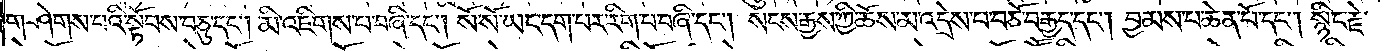གཤེགས་པའི་སྟོབས་བཅུ་དང༌། མི་འཇིགས་པ་བཞི་དང༌། སོ་སོ་ཡང་དག་པར་རིག་པ་བཞི་དང༌། སངས་རྒྱས་ཀྱི་ཆོས་མ་འདྲིས་པ་བཅོ་བརྒྱད་དང༌། བྱམས་པ་ཆེན་པོ་དང༌། སྙིང་རྗེ་
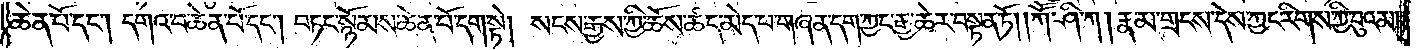ཆེན་པོ་དང༌། དགའ་བ་ཆེན་པོ་དང༌། བཏང་སྙོམས་ཆེན་པོ་དག་སྟེ། སངས་རྒྱས་ཀྱི་ཆོས་ཚད་མེད་གཞན་དག་ཀྱང་རྒྱ་ཆེར་བསྟན་ཏོ། །ཀཽ་ཤི་ཀ། རྣམ་གྲངས་དེས་ཀྱང་རིགས་ཀྱི་བུའམ།
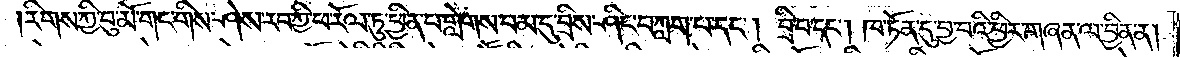རིགས་ཀྱི་བུ་མོ་གང་གིས་ཤེས་རབ་ཀྱི་ཕ་རོལ་ཏུ་ཕྱིན་པ་གླེགས་བམ་དུ་བྲིས་ཤིང་བཀླག་པ་དང༌། བྲི་བ་དང༌། ཁ་ཏོན་དུ་བྱ་བའི་ཕྱིར་གཞན་ལ་བྱིན་ན།
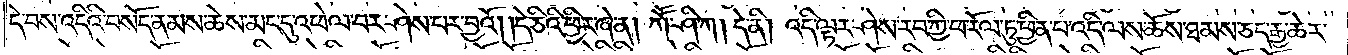དེ་བས་འདིའི་བསོད་ནམས་ཆེས་མང་དུ་འཕེལ་བར་ཤེས་པར་བྱའོ། །དེ་ཅིའི་ཕྱིར་ཞེ་ན། ཀཽ་ཤི་ཀ། དེ་ནི། འདི་ལྟར་ཤེས་རབ་ཀྱི་ཕ་རོལ་ཏུ་ཕྱིན་པ་འདི་ལས་ཆོས་ཐམས་ཅད་རྒྱ་ཆེར་
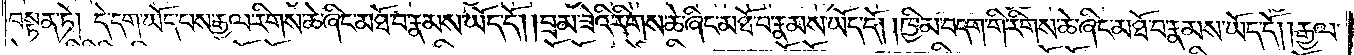བསྟན་ཏེ། དེ་དག་ཡོད་པས་རྒྱལ་རིགས་ཆེ་ཞིང་མཐོ་བ་རྣམས་ཡོད་དོ། །བྲམ་ཟེའི་རིགས་ཆེ་ཞིང་མཐོ་བ་རྣམས་ཡོད་དོ། །ཁྱིམ་བདག་གི་རིགས་ཆེ་ཞིང་མཐོ་བ་རྣམས་ཡོད་དོ། །རྒྱལ་
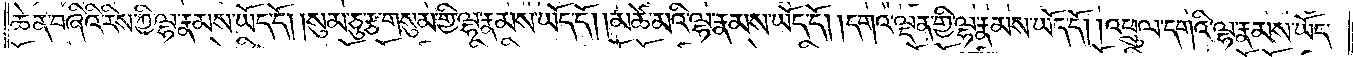ཆེན་བཞིའི་རིས་ཀྱི་ལྷ་རྣམས་ཡོད་དོ། །སུམ་ཅུ་རྩ་གསུམ་གྱི་ལྷ་རྣམས་ཡོད་དོ། །མཚེ་མའི་ལྷ་རྣམས་ཡོད་དོ། །དགའ་ལྡན་གྱི་ལྷ་རྣམས་ཡོད་དོ། །འཕྲུལ་དགའི་ལྷ་རྣམས་ཡོད་
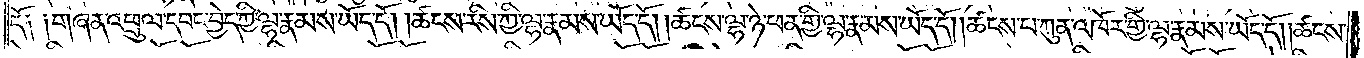དོ༑ ༑གཞན་འཕྲུལ་དབང་བྱེད་ཀྱི་ལྷ་རྣམས་ཡོད་དོ། །ཚངས་རིས་ཀྱི་ལྷ་རྣམས་ཡོད་དོ། །ཚངས་ལྷ་ཉེ་ཕན་གྱི་ལྷ་རྣམས་ཡོད་དོ། །ཚངས་པ་ཀུན་འཁོར་གྱི་ལྷ་རྣམས་ཡོད་དོ། །ཚངས་
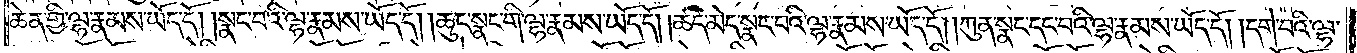ཆེན་གྱི་ལྷ་རྣམས་ཡོད་དོ། །སྣང་བའི་ལྷ་རྣམས་ཡོད་དོ། །ཆུང་སྣང་གི་ལྷ་རྣམས་ཡོད་དོ། །ཚད་མེད་སྣང་བའི་ལྷ་རྣམས་ཡོད་དོ། །ཀུན་སྣང་དང་བའི་ལྷ་རྣམས་ཡོད་དོ། །དགེ་བའི་ལྷ་
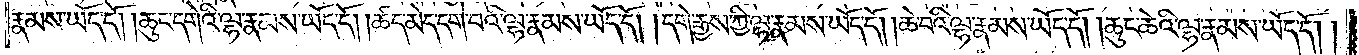རྣམས་ཡོད་དོ། །ཆུང་དགེའི་ལྷ་རྣམས་ཡོད་དོ། །ཚད་མེད་དགེ་བའི་ལྷ་རྣམས་ཡོད་དོ། །དགེ་རྒྱས་ཀྱི་ལྷ་རྣམས་ཡོད་དོ། །ཆེ་བའི་ལྷ་རྣམས་ཡོད་དོ། །ཆུང་ཆེའི་ལྷ་རྣམས་ཡོད་དོ། །
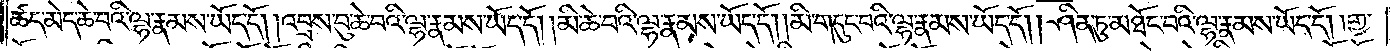ཚད་མེད་ཆེ་བའི་ལྷ་རྣམས་ཡོད་དོ། །འབྲས་བུ་ཆེ་བའི་ལྷ་རྣམས་ཡོད་དོ། །མི་ཆེ་བའི་ལྷ་རྣམས་ཡོད་དོ། །མི་གདུང་བའི་ལྷ་རྣམས་ཡོད་དོ། །ཤིན་ཏུ་མཐོང་བའི་ལྷ་རྣམས་ཡོད་དོ། །གྱ་
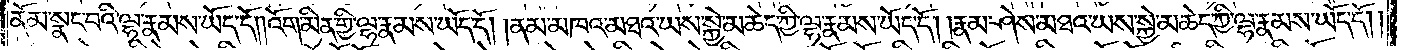ནོམ་སྣང་བའི་ལྷ་རྣམས་ཡོད་དོ། །འོག་མིན་གྱི་ལྷ་རྣམས་ཡོད་དོ། །ནམ་མཁའ་མཐའ་ཡས་སྐྱེ་མཆེད་ཀྱི་ལྷ་རྣམས་ཡོད་དོ། །རྣམ་ཤེས་མཐའ་ཡས་སྐྱེ་མཆེད་ཀྱི་ལྷ་རྣམས་ཡོད་དོ། །
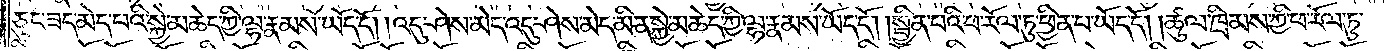ཅུང་ཟད་མེད་པའི་སྐྱེ་མཆེད་ཀྱི་ལྷ་རྣམས་ཡོད་དོ། །འདུ་ཤེས་མེད་འདུ་ཤེས་མེད་མིན་སྐྱེ་མཆེད་ཀྱི་ལྷ་རྣམས་ཡོད་དོ། །སྦྱིན་པའི་ཕ་རོལ་ཏུ་ཕྱིན་པ་ཡོད་དོ། །ཚུལ་ཁྲིམས་ཀྱི་ཕ་རོལ་ཏུ་
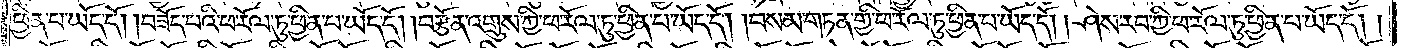ཕྱིན་པ་ཡོད་དོ། །བཟོད་པའི་ཕ་རོལ་ཏུ་ཕྱིན་པ་ཡོད་དོ། །བརྩོན་འགྲུས་ཀྱི་ཕ་རོལ་ཏུ་ཕྱིན་པ་ཡོད་དོ། །བསམ་གཏན་གྱི་ཕ་རོལ་ཏུ་ཕྱིན་པ་ཡོད་དོ། །ཤེས་རབ་ཀྱི་ཕ་རོལ་ཏུ་ཕྱིན་པ་ཡོད་དོ། །
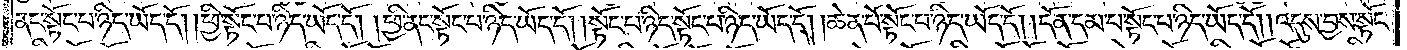ནང་སྟོང་པ་ཉིད་ཡོད་དོ། །ཕྱི་སྟོང་པ་ཉིད་ཡོད་དོ། །ཕྱི་ནང་སྟོང་པ་ཉིད་ཡོད་དོ། །སྟོང་པ་ཉིད་སྟོང་པ་ཉིད་ཡོད་དོ། །ཆེན་པོ་སྟོང་པ་ཉིད་ཡོད་དོ། །དོན་དམ་པ་སྟོང་པ་ཉིད་ཡོད་དོ། །འདུས་བྱས་སྟོང་
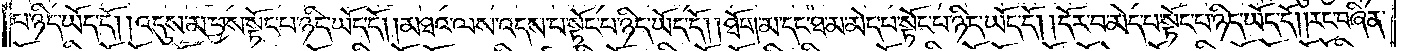པ་ཉིད་ཡོད་དོ། །འདུས་མ་བྱས་སྟོང་པ་ཉིད་ཡོད་དོ། །མཐའ་ལས་འདས་པ་སྟོང་པ་ཉིད་ཡོད་དོ། །ཐོག་མ་དང་ཐ་མ་མེད་པ་སྟོང་པ་ཉིད་ཡོད་དོ། །དོར་བ་མེད་པ་སྟོང་པ་ཉིད་ཡོད་དོ། །རང་བཞིན་
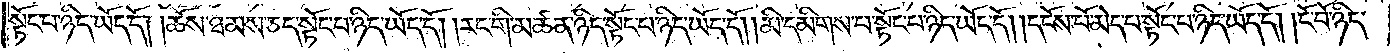སྟོང་པ་ཉིད་ཡོད་དོ། །ཆོས་ཐམས་ཅད་སྟོང་པ་ཉིད་ཡོད་དོ། །རང་གི་མཚན་ཉིད་སྟོང་པ་ཉིད་ཡོད་དོ། །མི་དམིགས་པ་སྟོང་པ་ཉིད་ཡོད་དོ། །དངོས་པོ་མེད་པ་སྟོང་པ་ཉིད་ཡོད་དོ། །ངོ་བོ་ཉིད་
